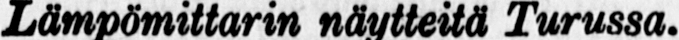Lämpömittarin näytteitä Turussa.
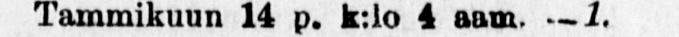Tammikuun 14 p. K:10 4 aam.-1.
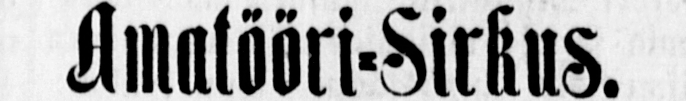Amatööri-Sirkus.
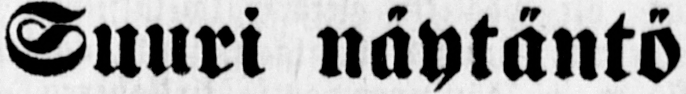Suuri näytäntö
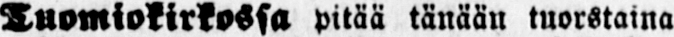Tuomiokirkossa pitää tänään tuorstaina
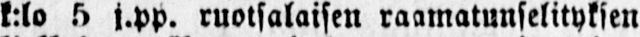k:lo 5 j.pp. ruotsalaisen raamatunselityksen
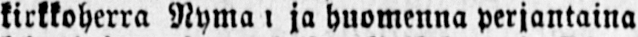kirkkoherra Nyma i ja huomenna perjantaina
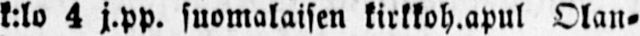k:lo 4 j.pp. suomalaisen kirkkoh.apul Olan-
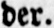der.
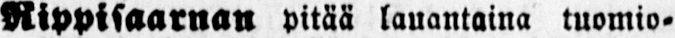Ripptsaarnan pitää lauantaina tuomio-
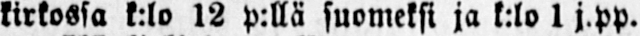kirkossa k:lo 12 p:llä suomeksi ja k:lo 1 j.pp.
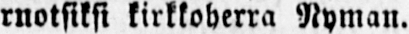ruotsiksi kirkkoherra Nyman.
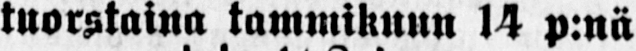tuorstaina tammikuun 14 p:nä
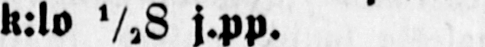K:lo ½8 j.pp.
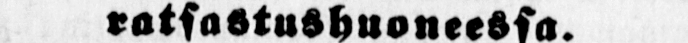ratsastushuoneessa.
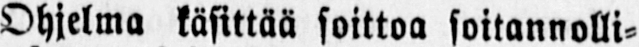Ohjelma käsittää soittoa soitannolli-
